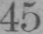45
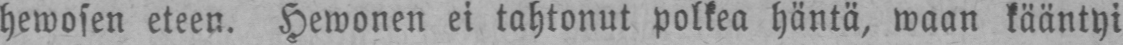hewosen eteen. Hewonen ei tahtonut polkea häntä, waan kääntyi
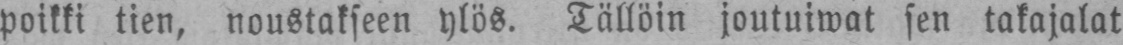poikki tien, noustakseen ylös. Tällöin joutuiwat sen takajalat
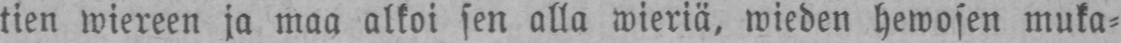tien wiereen ja maa alkoi sen alla wieriä, wieden hewosen muka-
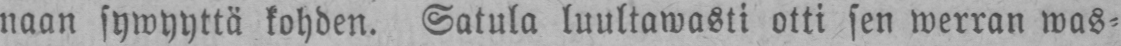naan sywyyttä kohden. Satula luultawasti otti sen werran was-
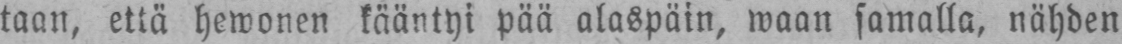taan, että hewonen kääntyi pää alaspäin, waan samalla, nähden
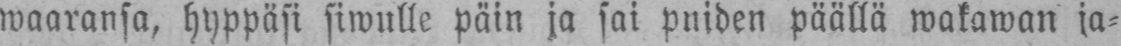waaransa, hyppäsi siwulle päin ja sai puiden päällä wakawan ja-
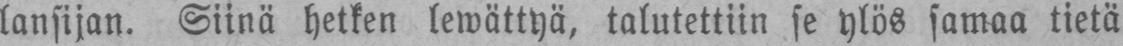lansijan. Siinä hetken lewättyä, talutettiin se ylös samaa tietä
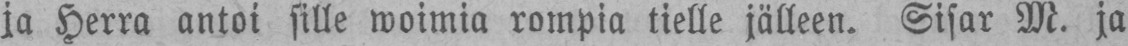ja Herra antoi sille woimia rompia tielle jälleen. Sisar M. ja
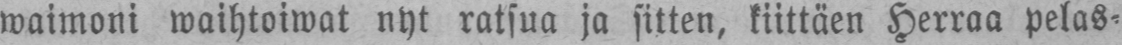waimoni waihtoiwat nyt ratsua ja sitten, kiittäen Herraa pelas-
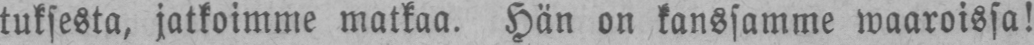tuksesta, jatkoimme matkaa. Hän on kanssamme waaroissa!
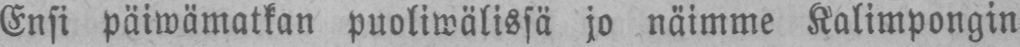Ensi päiwämatkan puoliwälissä jo näimme Kalimpongin
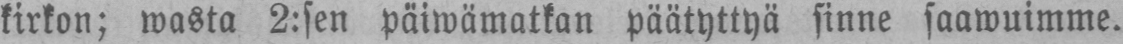kirkon; wasta 2:sen päiwämatkan päätyttyä sinne saawuimme.
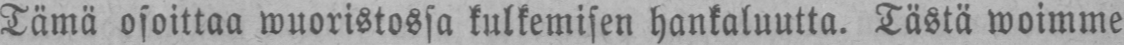Tämä osoittaa wuoristossa kulkemisen hankaluutta. Tästä woimme
